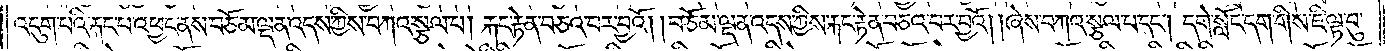འདུག་པའི་རྐང་པ་འཕྱང་ནས་བཅོམ་ལྡན་འདས་ཀྱིས་བཀའ་སྩལ་པ། རྐང་རྟེན་བཅའ་བར་བྱའོ། །བཅོམ་ལྡན་འདས་ཀྱིས་རྐང་རྟེན་བཅའ་བར་བྱའོ། །ཞེས་བཀའ་སྩལ་པ་དང༌། དགེ་སློང་དག་གིས་ཇི་ལྟ་བུ་
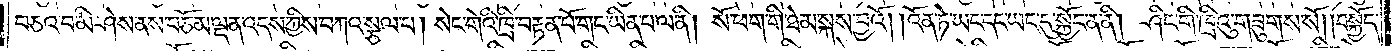བཅའ་བ་མི་ཤེས་ནས་བཅོམ་ལྡན་འདས་ཀྱིས་བཀའ་སྩལ་པ། སེང་གེའི་ཁྲི་བརྟན་པོ་གང་ཡིན་པ་ལ་ནི། སོ་ཕག་གི་ཐེམ་སྐས་བྱའོ། །འོན་ཏེ་ཡང་དང་ཡང་དུ་སྐྱོང་ན་ནི། ཤིང་གི་ཁྲིའུ་གཟུགས་སོ། །བསྐྱོད་
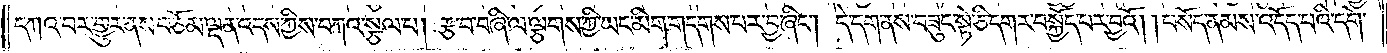དཀའ་བར་གྱུར་ནས་བཅོམ་ལྡན་འདས་ཀྱིས་བཀའ་སྩལ་པ། རྩ་བ་བཞི་ལ་ལྕགས་ཀྱི་ཡང་མིག་གདགས་པར་བྱ་ཞིང༌། དེ་དག་ནས་བཟུང་སྟེ་ཅི་དགར་བསྐྱོད་པར་བྱའོ། །བསོད་ནམས་འདོད་པའི་དགེ་
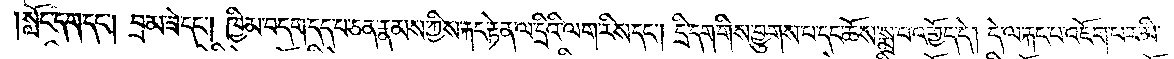སློང་དག་དང༌། བྲམ་ཟེ་དང༌། ཁྱིམ་བདག་དད་པ་ཅན་རྣམས་ཀྱིས་རྐང་རྟེན་ལ་དྲིའི་ལག་རིས་དང༌། དྲི་དག་གིས་བྱུགས་པ་དང་ཆོས་སྨྲ་བ་འགྱོད་དེ། དེ་ལ་རྐང་པ་འཇོག་པར་མི་
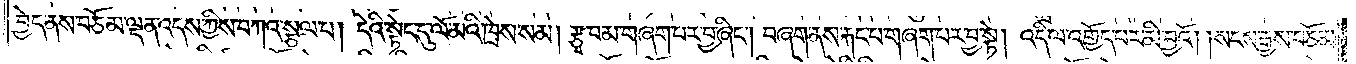བྱེད་ནས་བཅོམ་ལྡན་འདས་ཀྱིས་བཀའ་སྩལ་པ། དེའི་སྟེང་དུ་ལོ་མའི་ཁྲེས་སམ། རྩྭ་བམ་གཞག་པར་བྱ་ཞིང༌། བཞག་ནས་རྐང་པ་གཞག་པར་བྱ་སྟེ། འདི་ལ་འགྱོད་པར་མི་བྱའོ། །སངས་རྒྱས་བཅོམ་
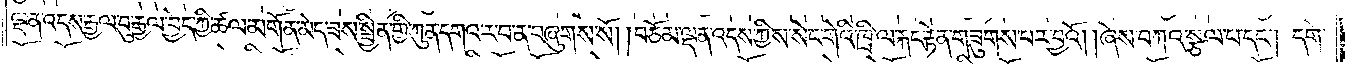ལྡན་འདས་རྒྱལ་བུ་རྒྱལ་བྱེད་ཀྱི་ཚལ་མགོན་མེད་ཟས་སྦྱིན་གྱི་ཀུན་དགའ་ར་བ་ན་བཞུགས་སོ། །བཅོམ་ལྡན་འདས་ཀྱིས་སེང་གེའི་ཁྲི་ལ་རྐང་རྟེན་གཟུགས་པར་བྱའོ། །ཞེས་བཀའ་སྩལ་པ་དང༌། དགེ་
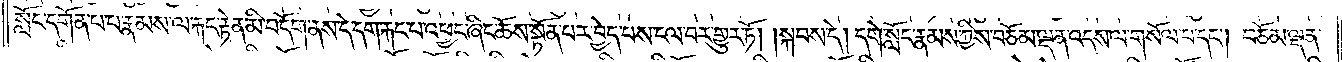སློང་དགོན་པ་པ་རྣམས་ལ་རྐང་རྟེན་མི་བདོག་ནས་དེ་དག་རྐང་པ་འཕྱང་ཞིང་ཆོས་སྟོན་པར་བྱེད་པས་ངལ་བར་གྱུར་ཏོ། །སྐབས་དེ། དགེ་སློང་རྣམས་ཀྱིས་བཅོམ་ལྡན་འདས་ལ་གསོལ་པ་དང༌། བཅོམ་ལྡན་
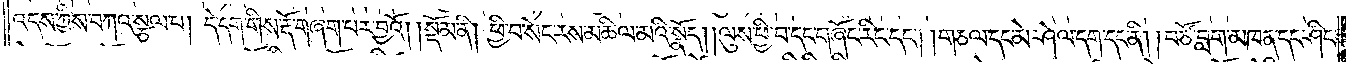འདས་ཀྱིས་བཀའ་སྩལ་པ། དེ་དག་གིས་རྡོ་གཞག་པར་བྱའོ།    །སྡོམ་ནི། ཕྱི་བ་སེང་རས་མཆིལ་མའི་སྣོད། །ལུས་ཕྱི་བ་དང་གཞོང་རིང་དང༌། །གཅལ་དང་མེ་ཤེལ་དག་དང་ནི། །བཙོ་བླག་མཁན་དང་ཤིང་
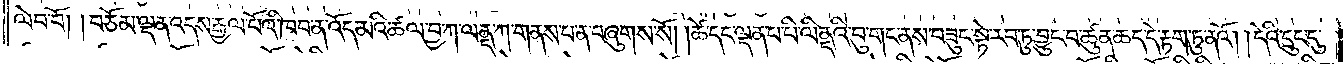ལེབ་བོ། །བཅོམ་ལྡན་འདས་རྒྱལ་པོའི་ཁབ་ན་འོད་མའི་ཚལ་བྱ་ཀ་ལནྡ་ཀ་གནས་པ་ན་བཞུགས་སོ། །ཚེ་དང་ལྡན་པ་པི་ལིནདའི་བུ་གང་ནས་བཟུང་སྟེ་རབ་ཏུ་བྱུང་བ་ཚུན་ཆད་དེ་རྟག་ཏུ་ནའོ། །དེའི་དྲུང་དུ་
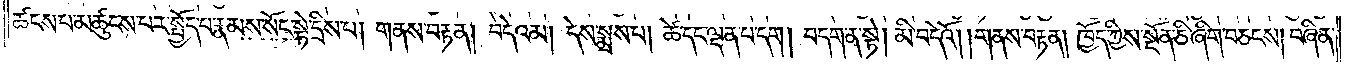ཚངས་པ་མཚུངས་པར་སྤྱོད་པ་རྣམས་སོང་སྟེ་དྲིས་པ། གནས་བརྟན། བདེའམ། དེས་སྨྲས་པ། ཚེ་དང་ལྡན་པ་དག། བདག་ན་སྟེ། མི་བདེའོ། །གནས་བརྟན། ཁྱོད་ཀྱིས་སྔོན་ཅི་ཞིག་བཅངས། བཞིན་
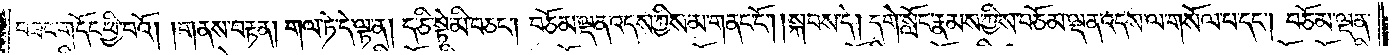བཟང་གདོང་ཕྱི་པའོ། །གནས་བརྟན། གལ་ཏེ་དེ་ལྟ་ན། ད་ཅི་སྟེ་མི་བཅང༌། བཅོམ་ལྡན་འདས་ཀྱིས་མ་གནང་ངོ༌། །སྐབས་དེ། དགེ་སློང་རྣམས་ཀྱིས་བཅོམ་ལྡན་འདས་ལ་གསོལ་པ་དང༌། བཅོམ་ལྡན་
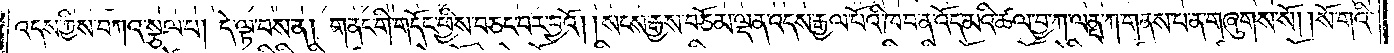འདས་ཀྱིས་བཀའ་སྩལ་པ། དེ་ལྟ་བས་ན། གནང་གི་གདོང་ཕྱིས་བཅང་བར་བྱའོ། །སངས་རྒྱས་བཅོམ་ལྡན་འདས་རྒྱལ་པོའི་ཁབ་ན་འོད་མའི་ཚལ་བྱ་ཀ་ལནྡ་ཀ་གནས་པ་ན་གཞུགས་སོ། །སོ་གའི་
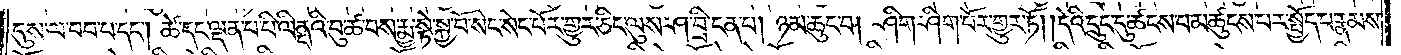དུས་ལ་བབ་པ་དང༌། ཚེ་དང་ལྡན་པ་པི་ལིནདའི་བུ་ཚ་བས་རྨྱ་སྟེ་སྐྱ་བོ་སེང་སེང་པོར་གྱུར་ཅིང་ལུས་ཤ་བྲི་ངན་པ། ཉམ་ཆུང་བ། ཤིག་ཤིག་པོར་གྱུར་ཏོ། །དེའི་དྲུང་དུ་ཚངས་པ་མཚུངས་པར་སྤྱོད་པ་རྣམས་
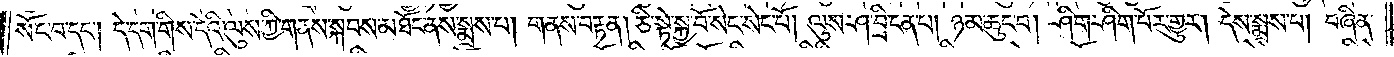སོང་བ་དང༌། དེ་དག་གིས་དེའི་ལུས་ཀྱི་གནས་སྐབས་མཐོང་ནས་སྨྲས་པ། གནས་བརྟན། ཅི་སྟེ་སྐྱ་བོ་སེང་སེང་པོ། ལུས་ཤ་བྲི་ངན་པ། ཉམ་ཆུང་བ། ཤིག་ཤིག་པོར་གྱུར། དེས་སྨྲས་པ། བཞིན་
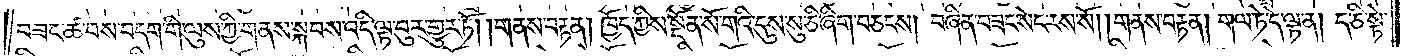བཟང་ཚ་བས་བདག་གི་ལུས་ཀྱི་གནས་སྐབས་འདི་ལྟ་བུར་གྱུར་ཏོ། །གནས་བརྟན། ཁྱོད་ཀྱིས་སྔོན་སོ་གའི་དུས་སུ་ཅི་ཞིག་བཅངས། བཞིན་བཟང་སེང་རས་སོ། །གནས་བརྟན། གལ་ཏེ་དེ་ལྟ་ན། ད་ཅི་སྟེ་
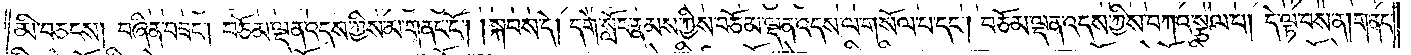མི་བཅངས། བཞིན་བཟང༌། བཅོམ་ལྡན་འདས་ཀྱིས་མ་གནང་ངོ༌། །སྐབས་དེ། དགེ་སློང་རྣམས་ཀྱིས་བཅོམ་ལྡན་འདས་ལ་གསོལ་པ་དང༌། བཅོམ་ལྡན་འདས་ཀྱིས་བཀའ་སྩལ་པ། དེ་ལྟ་བས་ན། གནང་
